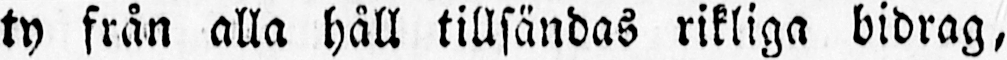ty från alla håll tillsändas rikliga bidrag,
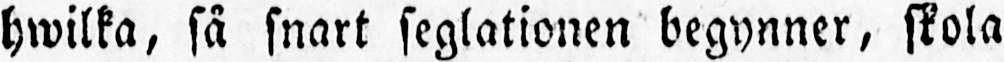hwilka, så snart seglationen begynner, skola
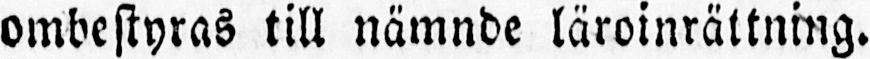ombestyras till nämnde läroinrättning.
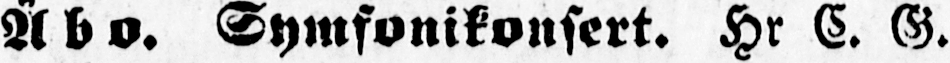Å b o. Symfonikonsert. Hr C. G.
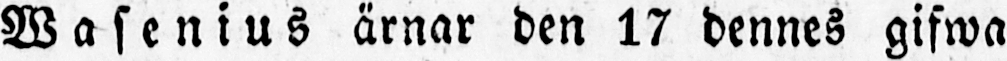Wasenius ärnar den 17 dennes gifwa
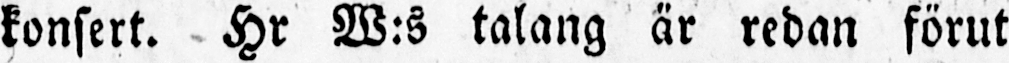konsert. Hr W:s talang är redan förut
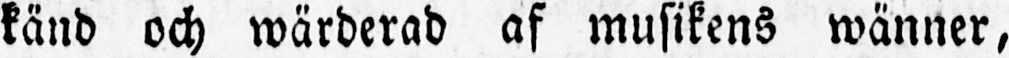känd och wärderad af musikens wänner,
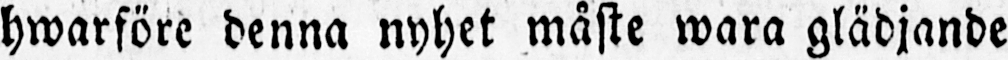hwarföre denna nyhet måste wara glädjande
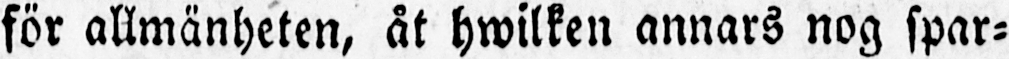för allmänheten, åt hwilken annars nog spar-
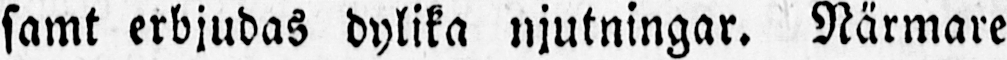samt erbjudas dylika njutningar. Närmare
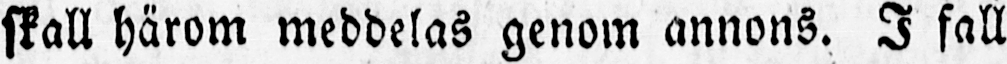skall härom meddelas genom annons. I fall
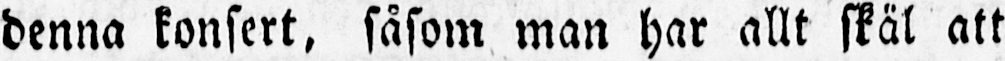denna konsert, såsom man har allt skäl att
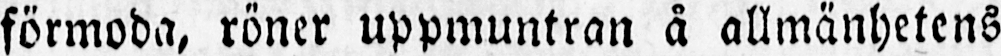förmoda, röner uppmuntran å allmänhetens
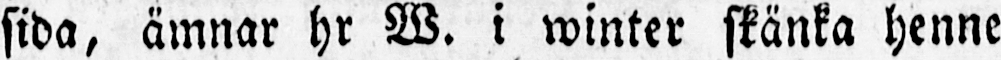sida, ämnar hr W. i winter skänka henne
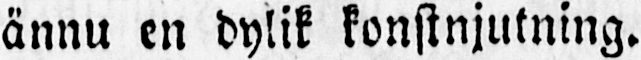ännu en dylik konstnjutning.
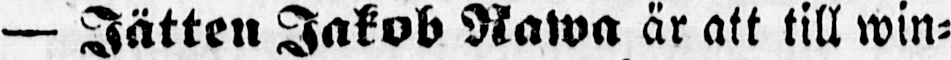— Jätten Jakob Rawa är att till win-
